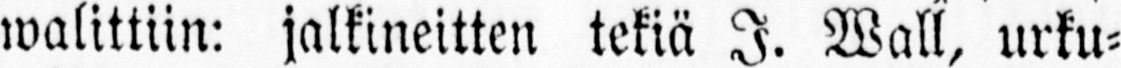walittiin: jalkineitten tekiä I. Wall, urku-
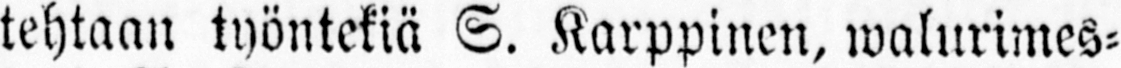tehtaan työntekiä S. Karppinen, walurimes-
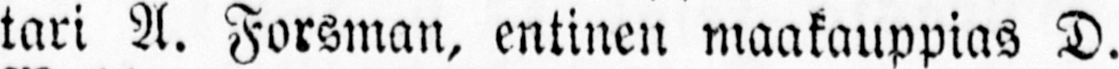tari A. Forsman, entinen maakauppias D.
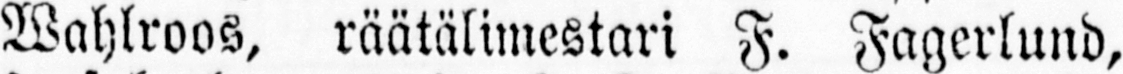Wahlroos, räätälimestari F. Fagerlund,
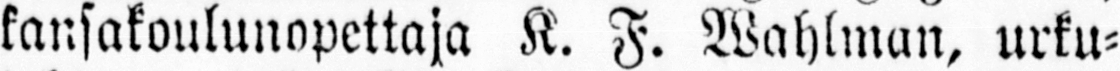kansakoulunopettaja K. F. Wahlman, urku-
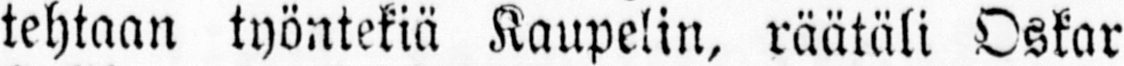tehtaan työntekiä Kaupelin, räätäli Oskar
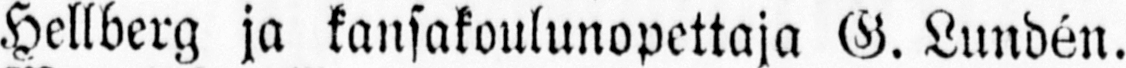Hellberg ja kansakoulunopettaja G. Lundén.
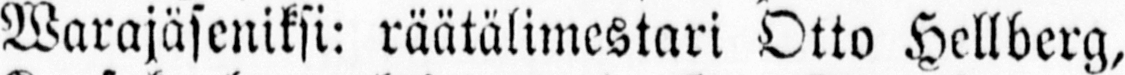Warajäseniksi: räätälimestari Otto Hellberg,
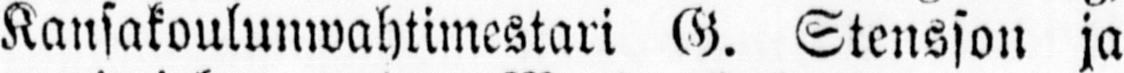Kansakoulunwahtimestari G. Stensson ja
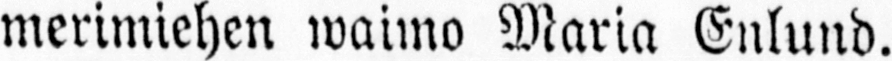merimiehen waimo Maria Enlund.
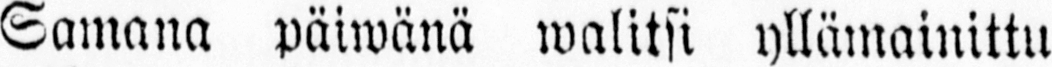Samana päiwänä walitsi yllämainittu
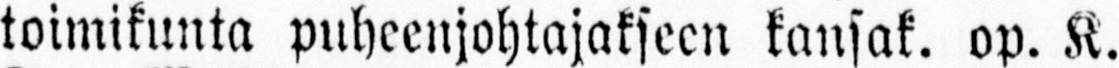toimikunta puheenjohtajakseen kansak. op. K.
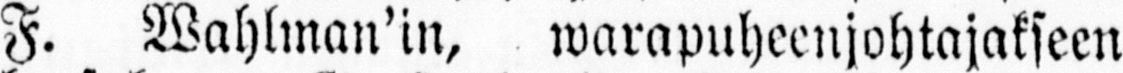F. Wahlman'in, warapuheenjohtajakseen
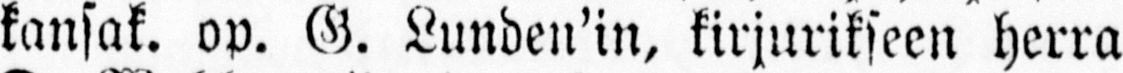kansak. op. G. Lunden'in, kirjurikseen herra
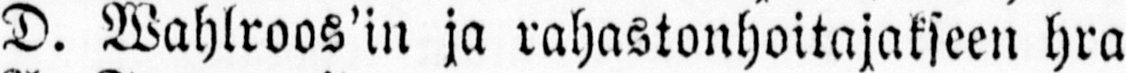D. Wahlroos'in ja rahastonhoitajakseen hra
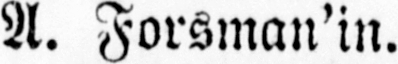A. Forsman'in.
